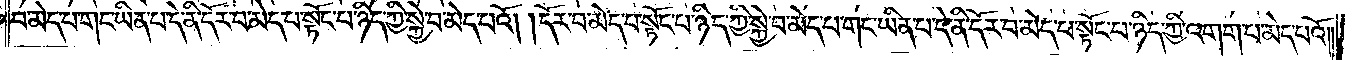བ་མེད་པ་གང་ཡིན་པ་དེ་ནི་དོར་བ་མེད་པ་སྟོང་པ་ཉིད་ཀྱི་སྐྱེ་བ་མེད་པའོ། །དོར་བ་མེད་པ་སྟོང་པ་ཉིད་ཀྱི་སྐྱེ་བ་མེད་པ་གང་ཡིན་པ་དེ་ནི་དོར་བ་མེད་པ་སྟོང་པ་ཉིད་ཀྱི་འགག་པ་མེད་པའོ། །
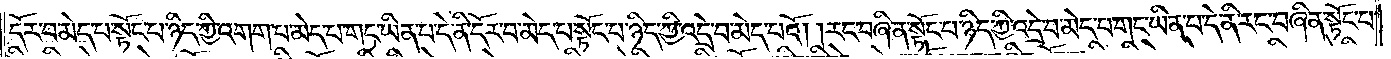དོར་བ་མེད་པ་སྟོང་པ་ཉིད་ཀྱི་འགག་པ་མེད་པ་གང་ཡིན་པ་དེ་ནི་དོར་བ་མེད་པ་སྟོང་པ་ཉིད་ཀྱི་འདྲེ་བ་མེད་པའོ། །རང་བཞིན་སྟོང་པ་ཉིད་ཀྱི་འདྲེ་བ་མེད་པ་གང་ཡིན་པ་དེ་ནི་རང་བཞིན་སྟོང་པ་
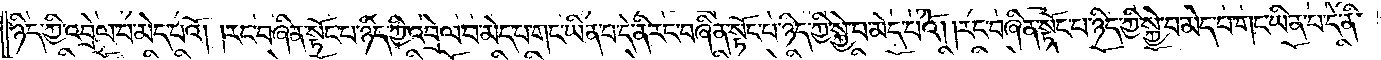ཉིད་ཀྱི་འབྲེལ་བ་མེད་པའོ། །རང་བཞིན་སྟོང་པ་ཉིད་ཀྱི་འབྲེལ་བ་མེད་པ་གང་ཡིན་པ་དེ་ནི་རང་བཞིན་སྟོང་པ་ཉིད་ཀྱི་སྐྱེ་བ་མེད་པའོ། །རང་བཞིན་སྟོང་པ་ཉིད་ཀྱི་སྐྱེ་བ་མེད་པ་གང་ཡིན་པ་དེ་ནི་
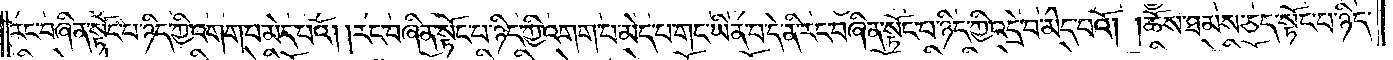རང་བཞིན་སྟོང་པ་ཉིད་ཀྱི་འགག་པ་མེད་པའོ། །རང་བཞིན་སྟོང་པ་ཉིད་ཀྱི་འགག་པ་མེད་པ་གང་ཡིན་པ་དེ་ནི་རང་བཞིན་སྟོང་པ་ཉིད་ཀྱི་འདྲེ་བ་མེད་པའོ། །ཆོས་ཐམས་ཅད་སྟོང་པ་ཉིད་
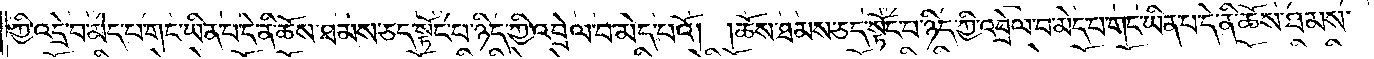ཀྱི་འདྲེ་བ་མེད་པ་གང་ཡིན་པ་དེ་ནི་ཆོས་ཐམས་ཅད་སྟོང་པ་ཉིད་ཀྱི་བྲེལ་བ་མེད་པའོ། །ཆོས་ཐམས་ཅད་སྟོང་པ་ཉིད་ཀྱི་འབྲེལ་བ་མེད་པ་གང་ཡིན་པ་དེ་ནི་ཆོས་ཐམས་
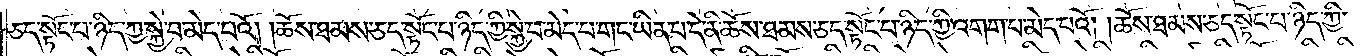ཅད་སྟོང་པ་ཉིད་ཀྱི་སྐྱེ་བ་མེད་པའོ། །ཆོས་ཐམས་ཅད་སྟོང་པ་ཉིད་ཀྱི་སྐྱེ་བ་མེད་པ་གང་ཡིན་པ་དེ་ནི་ཆོས་ཐམས་ཅད་སྟོང་པ་ཉིད་ཀྱི་འགག་པ་མེད་པའོ། །ཆོས་ཐམས་ཅད་སྟོང་པ་ཉིད་ཀྱི་
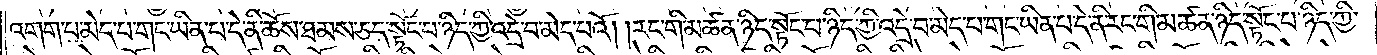འགག་པ་མེད་པ་གང་ཡིན་པ་དེ་ནི་ཆོས་ཐམས་ཅད་སྟོང་པ་ཉིད་ཀྱི་འདྲེ་བ་མེད་པའོ། །རང་གི་མཚན་ཉིད་སྟོང་པ་ཉིད་ཀྱི་འདྲེ་བ་མེད་པ་གང་ཡིན་པ་དེ་ནི་རང་གི་མཚན་ཉིད་སྟོང་པ་ཉིད་ཀྱི་
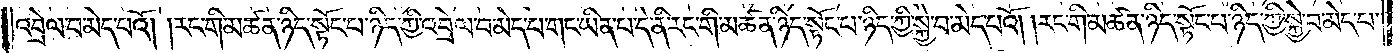འབྲེལ་བ་མེད་པའོ། །རང་གི་མཚན་ཉིད་སྟོང་པ་ཉིད་ཀྱི་འབྲེལ་བ་མེད་པ་གང་ཡིན་པ་དེ་ནི་རང་གི་མཚན་ཉིད་སྟོང་པ་ཉིད་ཀྱི་སྐྱེ་བ་མེད་པའོ། །རང་གི་མཚན་ཉིད་སྟོང་པ་ཉིད་ཀྱི་སྐྱེ་བ་མེད་པ་
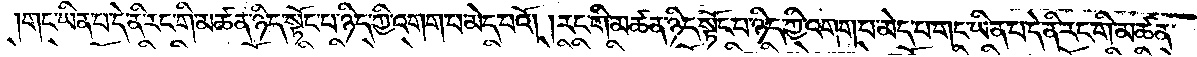གང་ཡིན་པ་དེ་ནི་རང་གི་མཚན་ཉིད་སྟོང་པ་ཉིད་ཀྱི་འགག་པ་མེད་པའོ། །རང་གི་མཚན་ཉིད་སྟོང་པ་ཉིད་ཀྱི་འགག་པ་མེད་པ་གང་ཡིན་པ་དེ་ནི་རང་གི་མཚན་
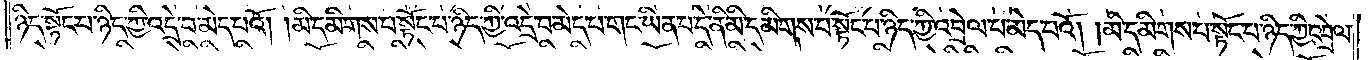ཉིད་སྟོང་པ་ཉིད་ཀྱི་འདྲེ་བ་མེད་པའོ། །མི་དམིགས་པ་སྟོང་པ་ཉིད་ཀྱི་འདྲེ་བ་མེད་པ་གང་ཡིན་པ་དེ་ནི་མི་དམིགས་པ་སྟོང་པ་ཉིད་ཀྱི་འབྲེལ་བ་མེད་པའོ། །མི་དམིགས་པ་སྟོང་པ་ཉིད་ཀྱི་འབྲེལ་
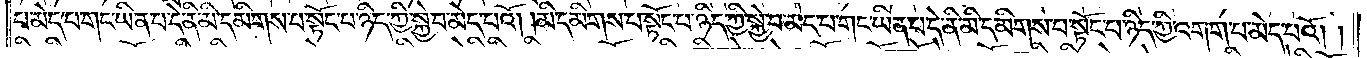བ་མེད་པ་གང་ཡིན་པ་དེ་ནི་མི་དམིགས་པ་སྟོང་པ་ཉིད་ཀྱི་སྐྱེ་བ་མེད་པའོ། །མི་དམིགས་པ་སྟོང་པ་ཉིད་ཀྱི་སྐྱེ་བ་མེད་པ་གང་ཡིན་པ་དེ་ནི་མི་དམིགས་པ་སྟོང་པ་ཉིད་ཀྱི་འགག་པ་མེད་པའོ། །
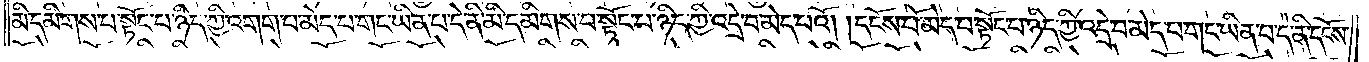མི་དམིགས་པ་སྟོང་པ་ཉིད་ཀྱི་འགག་པ་མེད་པ་གང་ཡིན་པ་དེ་ནི་མི་དམིགས་པ་སྟོང་པ་ཉིད་ཀྱི་འདྲེ་བ་མེད་པའོ། །དངོས་པོ་མེད་པ་སྟོང་པ་ཉིད་ཀྱི་འདྲེ་བ་མེད་པ་གང་ཡིན་པ་དེ་ནི་དངོས་
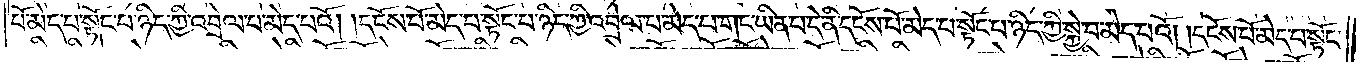པོ་མེད་པ་སྟོང་པ་ཉིད་ཀྱི་འབྲེལ་བ་མེད་པའོ། །དངོས་པོ་མེད་པ་སྟོང་པ་ཉིད་ཀྱི་འབྲེལ་བ་མེད་པ་གང་ཡིན་པ་དེ་ནི་དངོས་པོ་མེད་པ་སྟོང་པ་ཉིད་ཀྱི་སྐྱེ་བ་མེད་པའོ། །དངོས་པོ་མེད་པ་སྟོང་
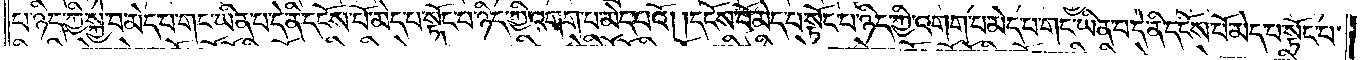པ་ཉིད་ཀྱི་སྐྱེ་བ་མེད་པ་གང་ཡིན་པ་དེ་ནི་དངོས་པོ་མེད་པ་སྟོང་པ་ཉིད་ཀྱི་འགག་པ་མེད་པའོ། །དངོས་པོ་མེད་པ་སྟོང་པ་ཉིད་ཀྱི་འགག་པ་མེད་པ་གང་ཡིན་པ་དེ་ནི་དངོས་པོ་མེད་པ་སྟོང་པ་
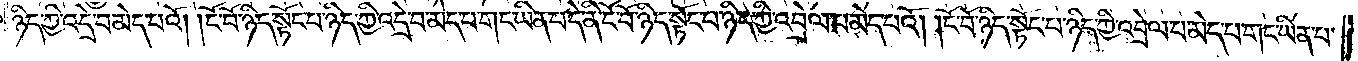ཉིད་ཀྱི་འདྲེ་བ་མེད་པའོ། །ངོ་བོ་ཉིད་སྟོང་པ་ཉིད་ཀྱི་འདྲེ་བ་མེད་པ་གང་ཡིན་པ་དེ་ནི་ངོ་བོ་ཉིད་སྟོང་པ་ཉིད་ཀྱི་འབྲེལ་པ་མེད་པའོ། །ངོ་བོ་ཉིད་སྟོང་པ་ཉིད་ཀྱི་འབྲེལ་པ་མེད་པ་གང་ཡིན་པ་
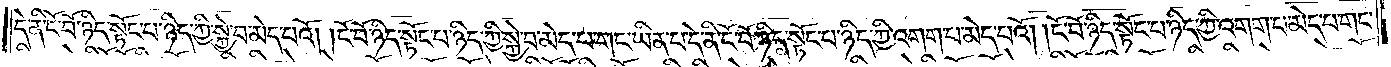དེ་ནི་ངོ་བོ་ཉིད་སྟོང་པ་ཉིད་ཀྱི་སྐྱེ་བ་མེད་པའོ། །ངོ་བོ་ཉིད་སྟོང་པ་ཉིད་ཀྱི་སྐྱེ་བ་མེད་པ་གང་ཡིན་པ་དེ་ནི་ངོ་བོ་ཉིད་སྟོང་པ་ཉིད་ཀྱི་འགག་པ་མེད་པའོ། །ངོ་བོ་ཉིད་སྟོང་པ་ཉིད་ཀྱི་འགག་པ་མེད་པ་གང་
